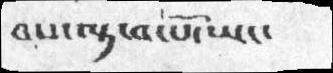བས་ལྟ་བ་པོ་ཡང་
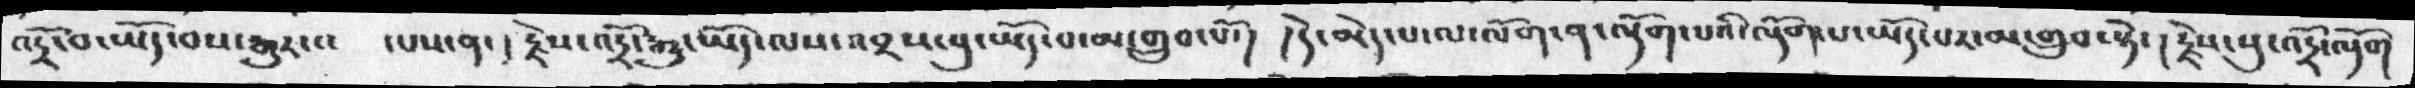འདྲོ་བ་ཡོད་བས་རྒྱུར་བ  ་པས་ན་། རྗེས་འདྲོ་རྒྱུ་ཡོད་ལས་འབྲས་བུ་ཡོད་པ་མ་གྲུབ་པོ་།  །དེ་མེད་པ་ལ་ལོག་ན་ལྡོག་པའི་ལྡོག་པ་ཡོད་པར་མ་གྲུབ་སྟེ་། རྗེས་སུ་འདྲོ་ལྡོག
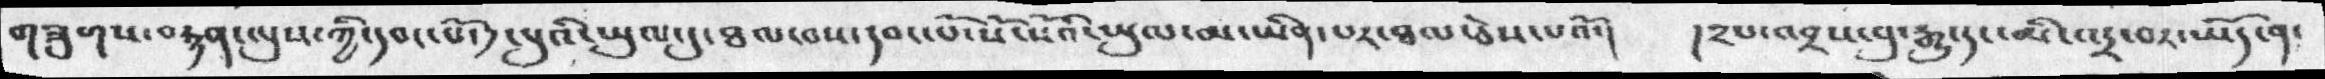གཟུགས་བརྙན་ལུས་ཀྱི་དབང་པོ་༡་པུའི་ཡུལ་དུ་ཐལ་བས་དབང་པོ་སོ་སོའི་ཡུལ་མ་ཡིན་པར་ཐལ་ཅེས་པའོ་། །༢པ་འབྲས་བུ་རྒྱུ་དང་མི་འདྲ་བར་ཡོད་ན་
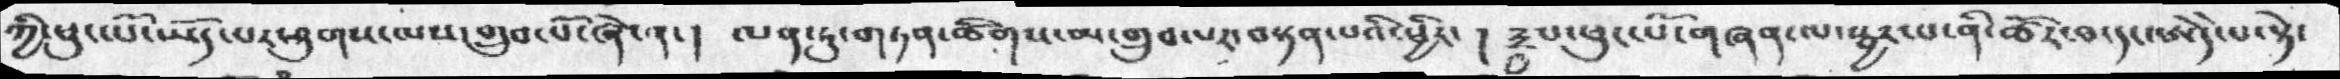ཀྱི་ཕུང་པོ་ཡོད་པར་ཤུགས་ལས་གྲུབ་པོ་ཞེ་ན་།  ལན་ཏུ་གཏན་ཚིགས་མ་གྲུབ་པར་བསྟན་པའི་ཕྱིར་།   ༣པ་ཕུང་པོ་གཞན་ལ་སྦྱར་པ་ནི་ཚོར་བ་དང་ཨེདེ་པ་སྟེ་
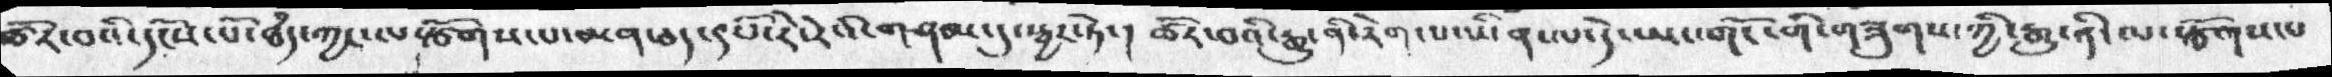ཚོར་བའི་དངོས་པོ་ཐཾད་ཀྱང་ལསྩོགས་པ་མན་ཆད་༩་པོ་རེ་རེའི་གཤམ་དུ་སྦྱར་ཏེ་།  ཚོར་བའི་རྒྱུ་ནི་རེག་པ་ཡིན་ལ་དེ་ཡང་གོང་གི་གཟུགས་ཀྱི་རྒྱུ་ནི་ལ་སྩོགས་པ
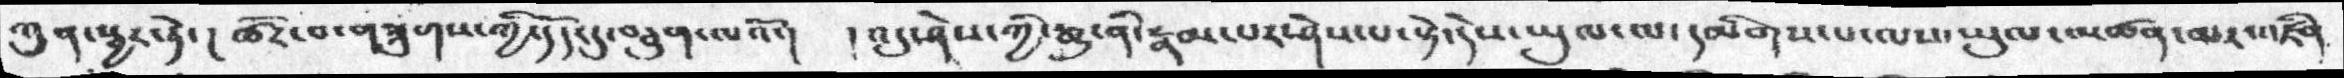ཀུན་སྦྱར་ཏེ་།  ཚོར་བ་གཟུགས་ཀྱི་དོད་དུ་བཅུག་ལའོ་།  །འདུ་ཤེས་ཀྱི་རྒྱུ་ནི་རྣམ་པར་ཤེས་པ་སྟེ་དེས་ཡུལ་ལ་དམིགས་པ་ལས་ཡུལ་མཚན་མར་འཛིན
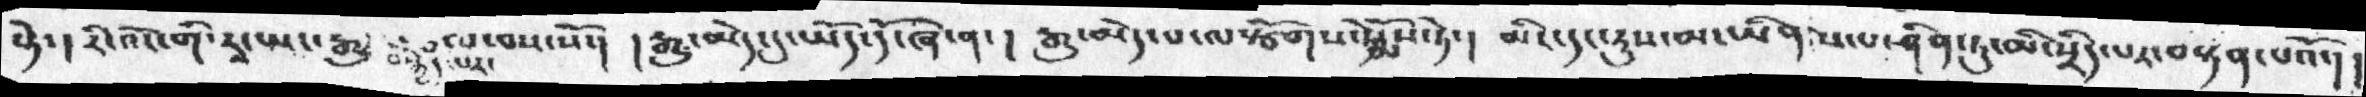སྟེ་།  རི་འོང་གི་རྭ་རང་ཡང་རྒྱུ་བསྐྱེད་པར་བས་སོ་།   །རྒྱུ་མེད་དུ་ཡོད་དོ་ཞེ་ན་།   རྒྱུ་མེད་པ་ལསྩོགས་སྨོས་ཏེ་།  མིང་དང་རུས་མ་ཡིན་པ་ཤིན་ཏུ་མི་སྲིད་པར་བསྟན་པའོ་། །
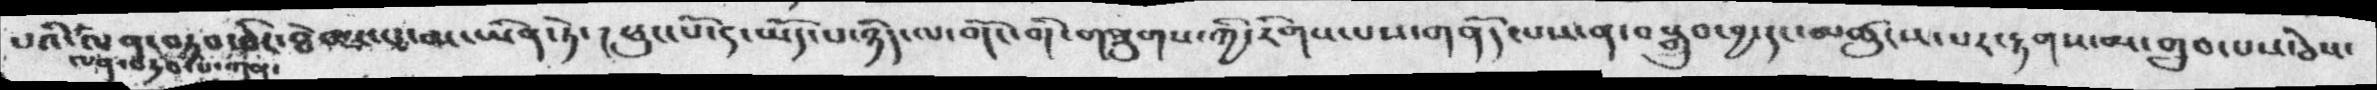པའི་ལན་བཏབ་པ་གན་ལན་བཏབ་ཅིང་ཐེབས་པ་མ་ཡིན་ཏེ་།  ཕུང་པོ་༤་ཡོད་པ་ཉིད་ལ་གོང་གི་གཟུགས་ཀྱི་རིགས་པས་གནོད་པས་ན་བསྒྲུབ་བྱ་དང་མཚུངས་པར་རྟགས་མ་གྲུབ་པས་ཅེས་
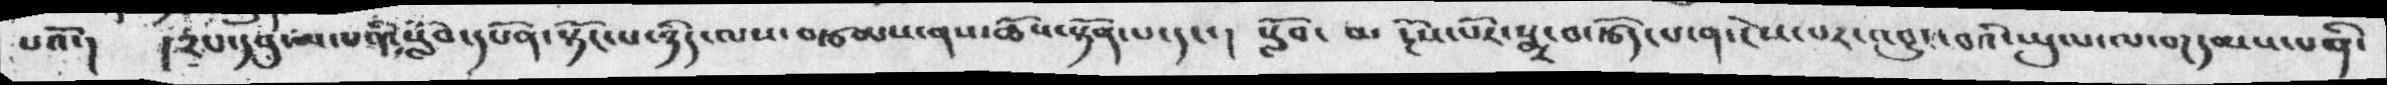པའོ་།   །༢པ་དབུ་མ་པ་ནི་སློབ་དཔོན་སྟོང་པ་ཉིད་ལས་བརྩམས་ནས་ཆོས་སྟོན་པ་དང་།  སློབ་མ  རྔོས་པོར་སྨྲ་བ་རྩོད་པ་ན་ངེས་པར་འབྱུང་བའི་ཡུལ་ལ་གདམས་པ་ིན་
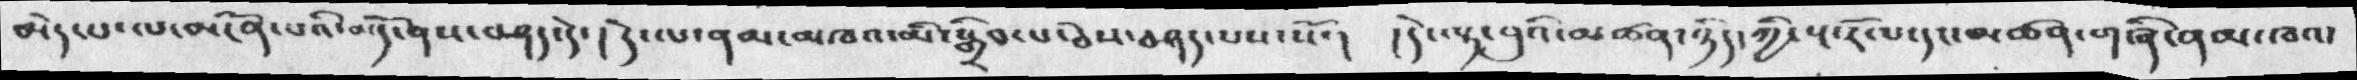མེད་པ་ལ་མངོན་པའི་མདོ་ནས་བཤད་དེ་། དེ་ལ་ནམ་མཁའ་མི་སྒྲིབ་པ་ཅེས་བཤད་པས་སོ་། །དེ་ལྟ་བུའི་མཚན་ཉིད་ཀྱི་སྔ་རོལ་དང་མཚན་གཞི་ནམ་ཁའ་
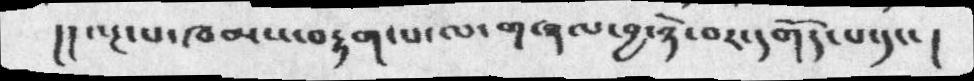།།ལྔ་པ་ཁམས་བརྟག་པ་ལ་གཞལ་བྱ་ཉེ་བར་དགོད་པ་དང་།
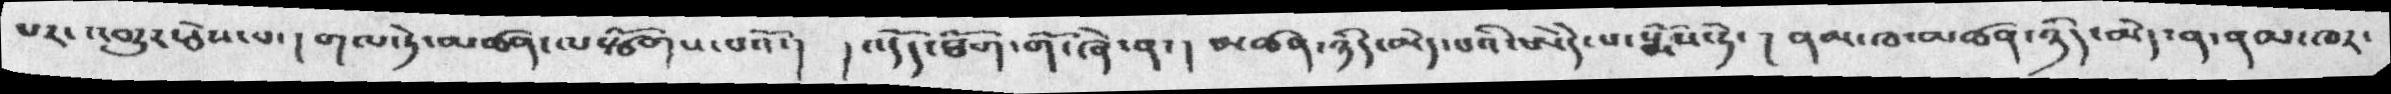པར་འགྱུར་ཅེས་པ་། གལ་ཏེ་མཚན་ལསྩོགས་པའོ་།  །འདོད་ཐོག་གོ་ཞེ་ན་། མཚན་ཉིད་མེད་པའི་ཨེདེ་པ་སྨོས་ཏེ་། ནམ་ཁ་མཚན་ཉིད་མེད་ན་ནམ་ཁར་
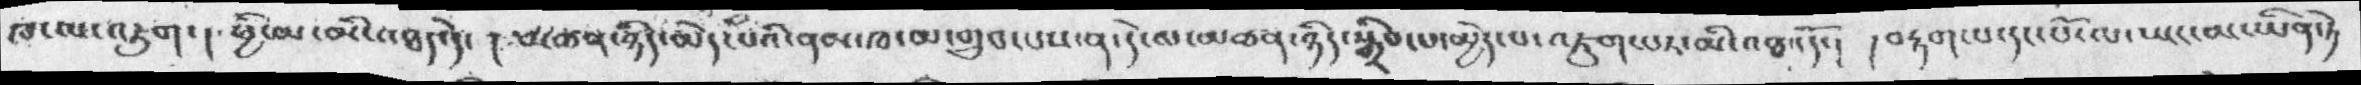ཁ་ལ་འཇུགས་།  ཕྱི་མ་མི་འཐད་དེ་།  མཚན་ཉིད་མེད་པའི་ནམ་ཁ་མ་གྲུབ་པས་ན་དེ་ལ་མཚན་ཉིད་སྒྲིབ་པ་མྱེད་པ་འཇུག་པར་མི་འཐད་དོ་།  །བརྟག་པ་དང་པོ་ལ་ཡང་མ་ཡིན་ཏེ
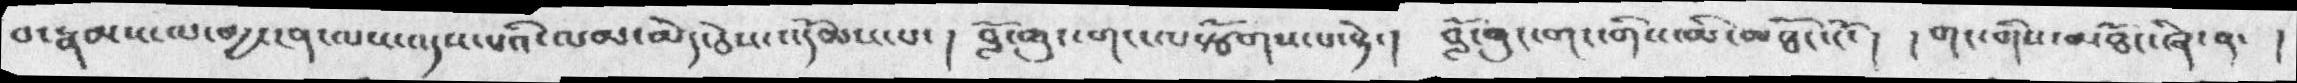བ་རྣམས་ལ་མྱ་ངན་ལས་འདས་པའི་ལམ་མེད་ཅེས་འདོམས་པ་།  བློ་ཆུང་གང་ལསྩོགས་པ་སྟེ་།   བློ་ཆུང་གང་གིས་མི་མཐོང་ངོ་།  །གང་གིས་མཐོང་ཞེ་ན་  །
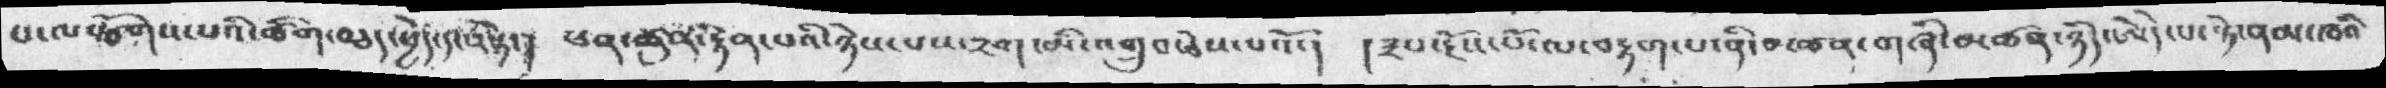པ་ལསྩོགས་པའི་ཚིག་བཅད་ཕྱེད་དང་༢སྟེ་།  ཕན་ཚུན་རྟེན་པའི་ཉེས་པས་༢ག་མི་འགྲུབ་ཅེས་པའོ་།  །༣པ་རྔོས་པོ་ལ་བརྟག་པ་ནི་མཚན་གཞི་མཚན་ཉིད་ཨེདེ་པ་སྟེ་ནམ་ཁའི
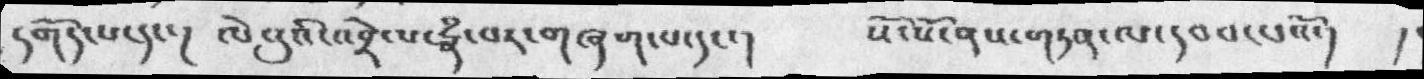དགོད་པ་དག་། ལེའུའི་འབྲེལ་རྣཾ་པར་གཞག་པ་དང་། སོ་སོ་ནས་གཏན་ལ་དབབ་པའོ་།  །
